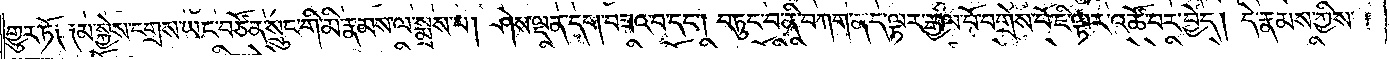གྱུར་ཏོ༑ ༑མ་སྐྱེས་དགྲས་ཡང་བཙོན་སྲུང་གི་མི་རྣམས་ལ་སྨྲས་པ། ཤེས་ལྡན་དག་བཟའ་བ་དང༌། བཏུང་བ་ནི་བཀག་ན་ད་ལྟར་རྒྱལ་པོ་བགྲེས་པོ་ཇི་ལྟར་འཚོ་བར་བྱེད། དེ་རྣམས་ཀྱིས་
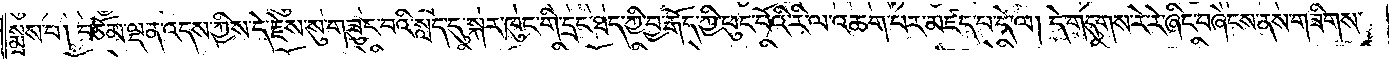སྨྲས་པ། བཅོམ་ལྡན་འདས་ཀྱིས་དེ་རྗེས་སུ་གཟུང་བའི་སླད་དུ་སྐར་ཁུང་གི་དྲང་ཐད་ཀྱི་བྱ་རྒོད་ཀྱི་ཕུང་པོའི་རི་ལ་འཆག་པར་མཛད་པ་དེ་ལ། དེ་གདུགས་རེ་རེ་ཞིང་བཞེངས་ནས་གཟིགས་
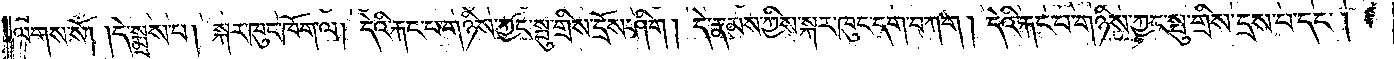ལགས་སོ། །དེ་སྨྲས་པ། སྐར་ཁུང་ཁོག་ལ། དེའི་རྐང་པ་གཉིས་ཀྱང་སྤུ་གྲིས་དྲོས་ཤིག། དེ་རྣམས་ཀྱིས་སྐར་ཁུང་དག་བཀག། དེའི་རྐང་པ་གཉིས་ཀྱང་སྤུ་གྲིས་དྲས་པ་དང༌།
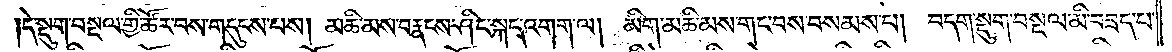དེ་སྡུག་བསྔལ་གྱི་ཚོར་བས་གདུངས་པས། མཆི་མས་བརྣངས་ཤིང་སྐད་འགག་ལ། མིག་མཆི་མས་གང་བས་བསམས་པ། བདག་སྡུག་བསྔལ་མི་བཟད་པ་
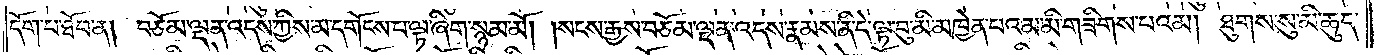དོག་པ་ཐོབ་ན། བཅོམ་ལྡན་འདས་ཀྱིས་མ་དགོངས་པ་ལྟ་ཞིག་སྙམ་མོ། །སངས་རྒྱས་བཅོམ་ལྡན་འདས་རྣམས་ནི་དེ་ལྟ་བུ་མི་མཁྱེན་པའམ་མི་གཟིགས་པའམ། ཐུགས་སུ་མི་ཆུད་
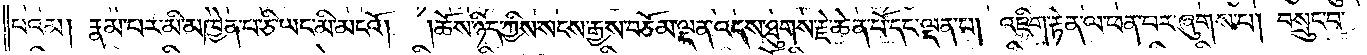པའམ། རྣམ་པར་མི་མཁྱེན་པ་ཅི་ཡང་མི་མངའོ།  །ཆོས་ཉིད་ཀྱིས་སངས་རྒྱས་བཅོམ་ལྡན་འདས་ཐུགས་རྗེ་ཆེན་པོ་དང་ལྡན་པ། འཇིག་རྟེན་ལ་ཕན་པར་ཞུགས་པ། བསྲུང་བ་
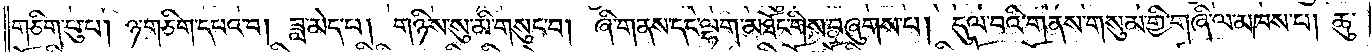གཅིག་པུ་པ། ཉ་གཅིག་དཔའ་བ། ཟླ་མེད་པ། གཉིས་སུ་མི་གསུང་བ། ཞི་གནས་དང་ལྷག་མཐོང་གིས་བཞུགས་པ། དུལ་བའི་གནས་གསུམ་གྱི་གཞི་ལ་མཁས་པ། ཆུ་
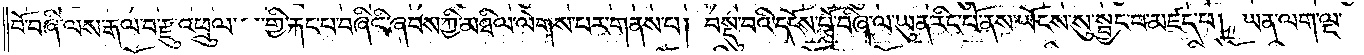བོ་བཞི་ལས་རྒལ་བ་རྫུ་འཕྲུལ་གྱི་རྐང་པ་བཞིའི་ཞབས་ཀྱི་མཐིལ་ལེགས་པར་གནས་པ། བསྡུ་བའི་དངོས་པོ་བཞི་ལ་ཡུན་རིང་པོ་ནས་ཡོངས་སུ་སྦྱང་བ་མཛད་པ། ཡན་ལག་ལྔ་
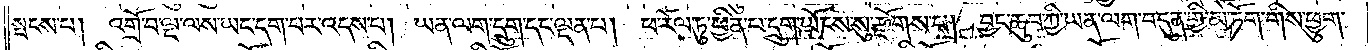སྤངས་པ། འགྲོ་བ་ལྔ་ལས་ཡང་དག་པར་འདས་པ། ཡན་ལག་དྲུག་དང་ལྡན་པ། ཕ་རོལ་ཏུ་ཕྱིན་པ་དྲུག་ཡོངས་སུ་རྫོགས་པ། བྱང་ཆུབ་ཀྱི་ཡན་ལག་བདུན་གྱི་མེ་ཏོག་གིས་ཕྱུག་
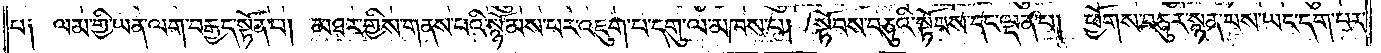པ༑ ལམ་གྱི་ཡན་ལག་བརྒྱད་སྟོན་པ། མཐར་གྱིས་གནས་པའི་སྙོམས་པར་འཇུག་པ་དགུ་ལ་མཁས་པ། སྟོབས་བཅུའི་སྟོབས་དང་ལྡན་པ། ཕྱོགས་བཅུར་སྙན་པས་ཡང་དག་པར་
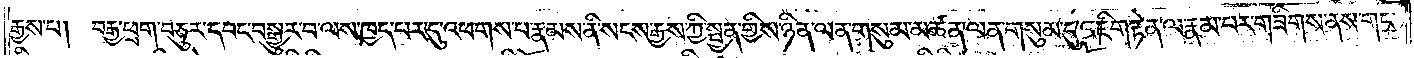རྒྱས་པ། བརྒྱ་ཕྲག་བཅུར་དབང་བསྒྱུར་བ་ལས་ཁྱད་པར་དུ་འཕགས་པ་རྣམས་ནི་སངས་རྒྱས་ཀྱི་སྤྱན་གྱིས་ཉིན་ལན་གསུམ་མཚན་ལན་གསུམ་དུ་འཇིག་རྟེན་ལ་རྣམ་པར་གཟིགས་ནས་གང་
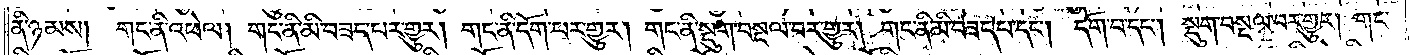ནི་ཉམས། གང་ནི་འཕེལ། གང་ནི་མི་བཟད་པར་གྱུར། གང་ནི་དོག་པར་གྱུར། གང་ནི་སྡུག་བསྔལ་བར་གྱུར། གང་ནི་མི་བཟད་པ་དང༌། དོག་པ་དང༌། སྡུག་བསྔལ་བར་གྱུར། གང་
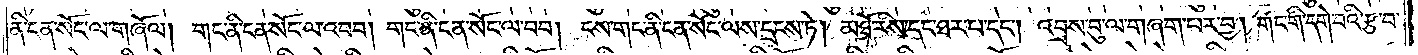ནི་ངན་སོང་ལ་གཞོལ། གང་ནི་ངན་སོང་ལ་འབབ། གང་ནི་ངན་སོང་ལ་བབ། ངས་གང་ནི་ངན་སོང་ལས་དྲངས་ཏེ། མཐོ་རིས་དང་ཐར་པ་དང༌། འབྲས་བུ་ལ་གཞག་པར་བྱ། གང་གི་དགེ་བའི་རྩ་བ་
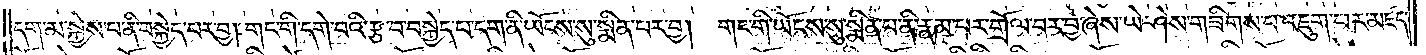དག་མ་སྐྱེས་པ་ནི་བསྐྱེད་པར་བྱ། གང་གི་དགེ་བའི་རྩ་བ་བསྐྱེད་པ་དག་ནི་ཡོངས་སུ་སྨིན་པར་བྱ། གང་གི་ཡོངས་སུ་སྨིན་པ་ནི་རྣམ་པར་གྲོལ་བར་བྱ་ཞེས་ཡེ་ཤེས་གཟིགས་པ་འཇུག་པར་མཛད་
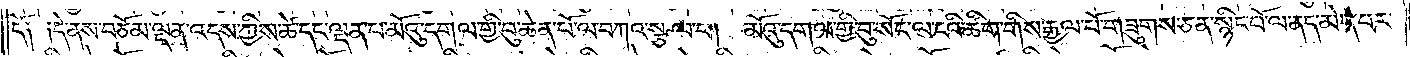དོ༑ ༑དེ་ནས་བཅོམ་ལྡན་འདས་ཀྱིས་ཚེ་དང་ལྡན་པ་མོའུ་དགལ་གྱི་བུ་ཆེན་པོ་ལ་བཀའ་སྩལ་པ། མོའུ་དགལ་གྱི་བུ་སོང་ལ་ངའི་ཚིག་གི་རྒྱལ་པོ་གཟུགས་ཅན་སྙིང་པོ་ལ་ནད་མེད་པར་
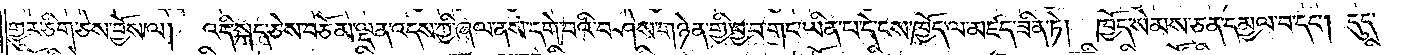གྱུར་ཅིག་ཅེས་བྱོས་ལ། འདི་སྐད་ཅེས་བཅོམ་ལྡན་འདས་ཀྱི་ཞལ་ནས་དགེ་བའི་བཤེས་གཉེན་གྱི་བྱ་བ་གང་ཡིན་པ་དེ་ངས་ཁྱོད་ལ་མཛད་ཟིན་ཏེ། ཁྱོད་སེམས་ཅན་དམྱལ་བ་དང༌། དུད་
